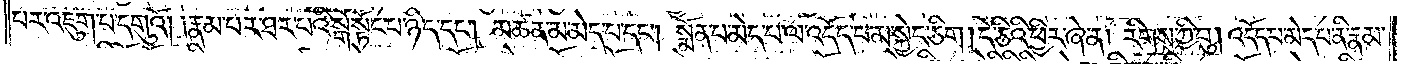པར་འཇུག་པ་དགུའོ། །རྣམ་པར་ཐར་པའི་སྒོ་སྟོང་པ་ཉིད་དང༌། མཚན་མ་མེད་པ་དང༌། སྨོན་པ་མེད་པ་ལ་འདོད་པ་མ་སྐྱེད་ཅིག །དེ་ཅིའི་ཕྱིར་ཞེ་ན། རིགས་ཀྱི་བུ། འདོད་པ་མེད་པ་ནི་རྣམ་
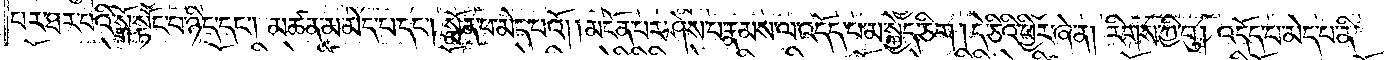པར་ཐར་པའི་སྒོ་སྟོང་པ་ཉིད་དང༌། མཚན་མ་མེད་པ་དང༌། སྨོན་པ་མེད་པའོ། །མངོན་པར་ཤེས་པ་རྣམས་ལ་འདོད་པ་མ་སྐྱེད་ཅིག །དེ་ཅིའི་ཕྱིར་ཞེ་ན། རིགས་ཀྱི་བུ། འདོད་པ་མེད་པ་ནི་
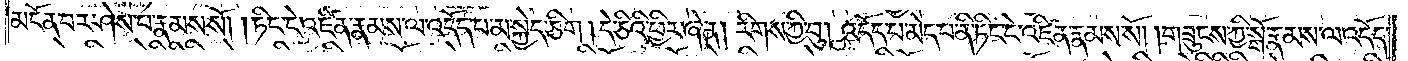མངོན་པར་ཤེས་པ་རྣམས་སོ། །ཏིང་ངེ་འཛིན་རྣམས་ལ་འདོད་པ་མ་སྐྱེད་ཅིག །དེ་ཅིའི་ཕྱིར་ཞེ་ན། རིགས་ཀྱི་བུ། འདོད་པ་མེད་པ་ནི་ཏིང་ངེ་འཛིན་རྣམས་སོ། །གཟུངས་ཀྱི་སྒོ་རྣམས་ལ་འདོད་
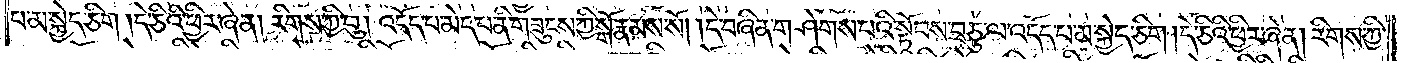པ་མ་སྐྱེད་ཅིག །དེ་ཅིའི་ཕྱིར་ཞེ་ན། རིགས་ཀྱི་བུ། འདོད་པ་མེད་པ་ནི་གཟུངས་ཀྱི་སྒོ་རྣམས་སོ། །དེ་བཞིན་གཤེགས་པའི་སྟོབས་བཅུ་ལ་འདོད་པ་མ་སྐྱེད་ཅིག །དེ་ཅིའི་ཕྱིར་ཞེ་ན། རིགས་ཀྱི་
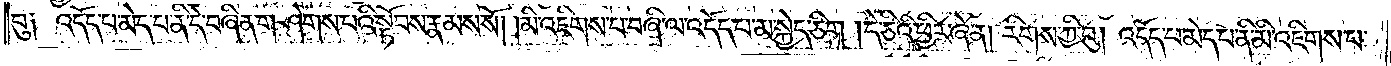བུ། འདོད་པ་མེད་པ་ནི་དེ་བཞིན་གཤེགས་པའི་སྟོབས་རྣམས་སོ། །མི་འཇིགས་པ་བཞི་ལ་འདོད་པ་མ་སྐྱེད་ཅིག །དེ་ཅིའི་ཕྱིར་ཞེ་ན། རིགས་ཀྱི་བུ། འདོད་པ་མེད་པ་ནི་མི་འཇིགས་པ་
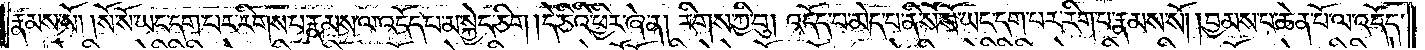རྣམས་སོ། །སོ་སོ་ཡང་དག་པར་རིག་པ་རྣམས་ལ་འདོད་པ་མ་སྐྱེད་ཅིག །དེ་ཅིའི་ཕྱིར་ཞེ་ན། རིགས་ཀྱི་བུ། འདོད་པ་མེད་པ་ན་སོ་སོ་ཡང་དག་པར་རིག་པ་རྣམས་སོ། །བྱམས་པ་ཆེན་པོ་ལ་འདོད་
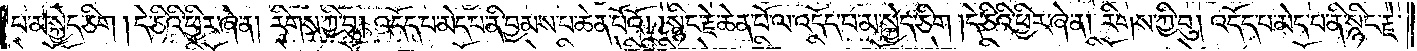པ་མ་སྐྱེད་ཅིག །དེ་ཅིའི་ཕྱིར་ཞེ་ན། རིགས་ཀྱི་བུ། འདོད་པ་མེད་པ་ནི་བྱམས་པ་ཆེན་པོའོ། །སྙིང་རྗེ་ཆེན་པོ་ལ་འདོད་པ་མ་སྐྱེད་ཅིག །དེ་ཅིའི་ཕྱིར་ཞེ་ན། རིགས་ཀྱི་བུ། འདོད་པ་མེད་པ་ནི་སྙིང་རྗེ་
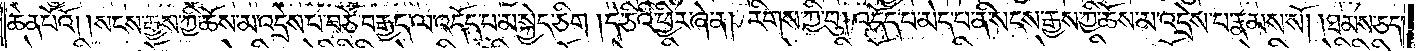ཆེན་པོའོ། །སངས་རྒྱས་ཀྱི་ཆོས་མ་འདྲེས་པ་བཅོ་བརྒྱད་ལ་འདོད་པ་མ་སྐྱེད་ཅིག། དེ་ཅིའི་ཕྱིར་ཞེ་ན། རིགས་ཀྱི་བུ། འདོད་པ་མེད་པ་ནི་སངས་རྒྱས་ཀྱི་ཆོས་མ་འདྲེས་པ་རྣམས་སོ། །ཐམས་ཅད་
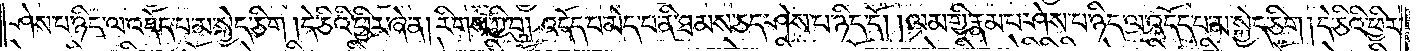ཤེས་པ་ཉིད་ལ་འདོད་པ་མ་སྐྱེད་ཅིག །དེ་ཅིའི་ཕྱིར་ཞེ་ན། རིགས་ཀྱི་བུ། འདོད་པ་མེད་པ་ནི་ཐམས་ཅད་ཤེས་པ་ཉིད་དོ། །ལམ་གྱི་རྣམ་པ་ཤེས་པ་ཉིད་ལ་འདོད་པ་མ་སྐྱེད་ཅིག །དེ་ཅིའི་ཕྱིར་
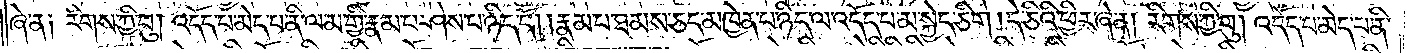ཞེ་ན། རིགས་ཀྱི་བུ། འདོད་པ་མེད་པ་ནི་ལམ་གྱི་རྣམ་པ་ཤེས་པ་ཉིད་དོ། །རྣམ་པ་ཐམས་ཅད་མཁྱེན་པ་ཉིད་ལ་འདོད་པ་མ་སྐྱེད་ཅིག །དེ་ཅིའི་ཕྱིར་ཞེ་ན། རིགས་ཀྱི་བུ། འདོད་པ་མེད་པ་ནི་
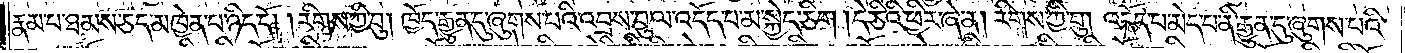རྣམ་པ་ཐམས་ཅད་མཁྱེན་པ་ཉིད་དོ། །རིགས་ཀྱི་བུ། ཁྱོད་རྒྱུན་དུ་ཞུགས་པའི་འབྲས་བུ་ལ་འདོད་པ་མ་སྐྱེད་ཅིག །དེ་ཅིའི་ཕྱིར་ཞེ་ན། རིགས་ཀྱི་བུ། འདོད་པ་མེད་པ་ནི་རྒྱུན་དུ་ཞུགས་པའི་
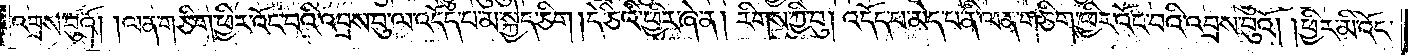འབྲས་བུའོ། །ལན་གཅིག་ཕྱིར་འོང་བའི་འབྲས་བུ་ལ་འདོད་པ་མ་སྐྱེད་ཅིག །དེ་ཅིའི་ཕྱིར་ཞེ་ན། རིགས་ཀྱི་བུ། འདོད་པ་མེད་པ་ནི་ལན་ཅིག་ཕྱིར་འོང་བའི་འབྲས་བུའོ། །ཕྱིར་མི་འོང་
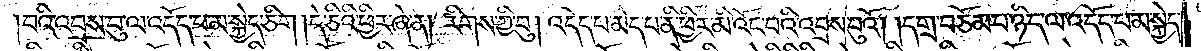བའི་འབྲས་བུ་ལ་འདོད་པ་མ་སྐྱེད་ཅིག །དེ་ཅིའི་ཕྱིར་ཞེ་ན། རིགས་ཀྱི་བུ། འདོད་པ་མེད་པ་ནི་ཕྱིར་མི་འོང་བའི་འབྲས་བུའོ། །དགྲ་བཅོམ་པ་ཉིད་ལ་འདོད་པ་མ་སྐྱེད་
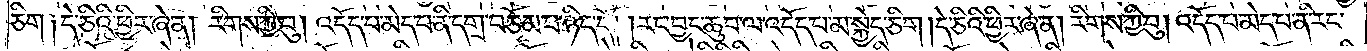ཅིག །དེ་ཅིའི་ཕྱིར་ཞེ་ན། རིགས་ཀྱི་བུ། འདོད་པ་མེད་པ་ནི་དགྲ་བཅོམ་པ་ཉིད་དོ། །རང་བྱང་ཆུབ་ལ་འདོད་པ་མ་སྐྱེད་ཅིག །དེ་ཅིའི་ཕྱིར་ཞེ་ན། རིགས་ཀྱི་བུ། འདོད་པ་མེད་པ་ནི་རང་
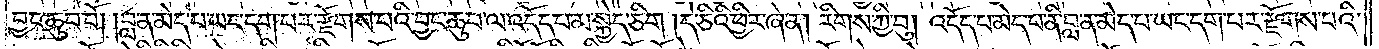བྱང་ཆུབ་བོ། །བླ་ན་མེད་པ་ཡང་དག་པར་རྫོགས་པའི་བྱང་ཆུབ་ལ་འདོད་པ་མ་སྐྱེད་ཅིག །དེ་ཅིའི་ཕྱིར་ཞེ་ན། རིགས་ཀྱི་བུ། འདོད་པ་མེད་པ་ནི་བླ་ན་མེད་པ་ཡང་དག་པར་རྫོགས་པའི་
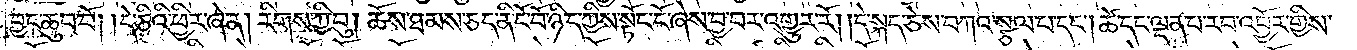བྱང་ཆུབ་བོ། །དེ་ཅིའི་ཕྱིར་ཞེ་ན། རིགས་ཀྱི་བུ། ཆོས་ཐམས་ཅད་ནི་ངོ་བོ་ཉིད་ཀྱིས་སྟོང་ངོ་ཞེས་བྱ་བར་འགྱུར་རོ། །དེ་སྐད་ཅེས་བཀའ་སྩལ་བ་དང༌། ཚེ་དང་ལྡན་པ་རབ་འབྱོར་གྱིས་
